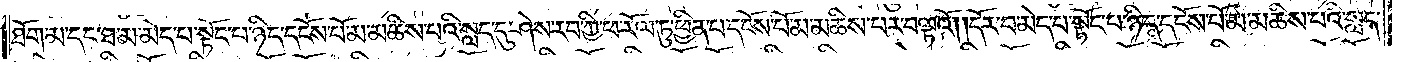ཐོག་མ་དང་ཐ་མ་མེད་པ་སྟོང་པ་ཉིད་དངོས་པོ་མ་མཆིས་པའི་སླད་དུ་ཤེས་རབ་ཀྱི་ཕ་རོལ་ཏུ་ཕྱིན་པ་དངོས་པོ་མ་མཆིས་པར་བལྟའོ། །དོར་བ་མེད་པ་སྟོང་པ་ཉིད་དངོས་པོ་མ་མཆིས་པའི་སླད་
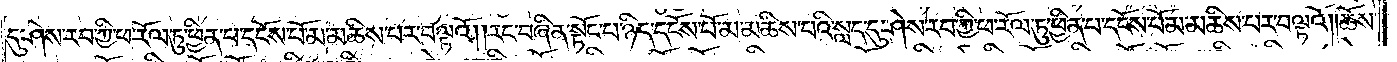དུ་ཤེས་རབ་ཀྱི་ཕ་རོལ་ཏུ་ཕྱིན་པ་དངོས་པོ་མ་མཆིས་པར་བལྟའོ། །རང་བཞིན་སྟོང་པ་ཉིད་དངོས་པོ་མ་མཆིས་པའི་སླད་དུ་ཤེས་རབ་ཀྱི་ཕ་རོལ་ཏུ་ཕྱིན་པ་དངོས་པོ་མ་མཆིས་པར་བལྟའོ། །ཆོས་
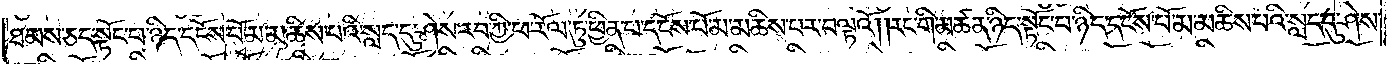ཐམས་ཅད་སྟོང་པ་ཉིད་དངོས་པོ་མ་མཆིས་པའི་སླད་དུ་ཤེས་རབ་ཀྱི་ཕ་རོལ་ཏུ་ཕྱིན་པ་དངོས་པོ་མ་མཆིས་པར་བལྟའོ། །རང་གི་མཚན་ཉིད་སྟོང་པ་ཉིད་དངོས་པོ་མ་མཆིས་པའི་སླད་དུ་ཤེས་
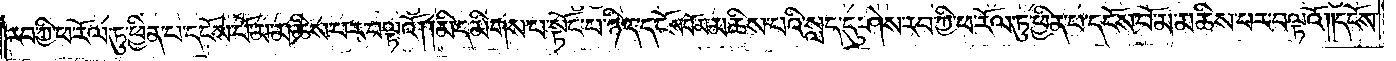རབ་ཀྱི་ཕ་རོལ་ཏུ་ཕྱིན་པ་དངོས་པོ་མ་མཆིས་པར་བལྟའོ། །མི་དམིགས་པ་སྟོང་པ་ཉིད་དངོས་པོ་མ་མཆིས་པའི་སླད་དུ་ཤེས་རབ་ཀྱི་ཕ་རོལ་ཏུ་ཕྱིན་པ་དངོས་པོ་མ་མཆིས་པར་བལྟའོ། །དངོས་
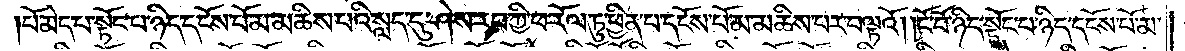པོ་མེད་པ་སྟོང་པ་ཉིད་དངོས་པོ་མ་མཆིས་པའི་སླད་དུ་ཤེས་རབ་ཀྱི་ཕ་རོལ་ཏུ་ཕྱིན་པ་དངོས་པོ་མ་མཆིས་པར་བལྟའོ། །ངོ་བོ་ཉིད་སྟོང་པ་ཉིད་དངོས་པོ་མ་
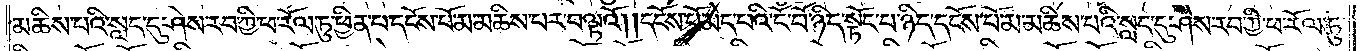མཆིས་པའི་སླད་དུ་ཤེས་རབ་ཀྱི་ཕ་རོལ་ཏུ་ཕྱིན་པ་དངོས་པོ་མ་མཆིས་པར་བལྟའོ། །དངོས་པོ་མེད་པའི་ངོ་བོ་ཉིད་སྟོང་པ་ཉིད་དངོས་པོ་མ་མཆིས་པའི་སླད་དུ་ཤེས་རབ་ཀྱི་ཕ་རོལ་ཏུ་
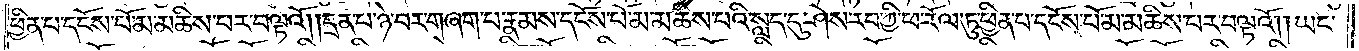ཕྱིན་པ་དངོས་པོ་མ་མཆིས་པར་བལྟའོ། །དྲན་པ་ཉེ་བར་གཞག་པ་རྣམས་དངོས་པོ་མ་མཆིས་པའི་སླད་དུ་ཤེས་རབ་ཀྱི་ཕ་རོལ་ཏུ་ཕྱིན་པ་དངོས་པོ་མ་མཆིས་པར་བལྟའོ། །ཡང་
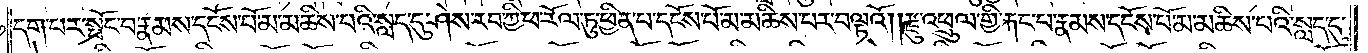དག་པར་སྤོང་བ་རྣམས་དངོས་པོ་མ་མཆིས་པའི་སླད་དུ་ཤེས་རབ་ཀྱི་ཕ་རོལ་ཏུ་ཕྱིན་པ་དངོས་པོ་མ་མཆིས་པར་བལྟའོ། །རྫུ་འཕྲུལ་གྱི་རྐང་པ་རྣམས་དངོས་པོ་མ་མཆིས་པའི་སླད་དུ་
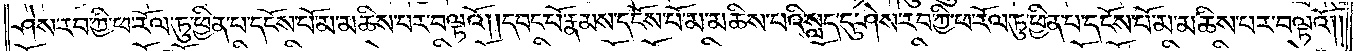ཤེས་རབ་ཀྱི་ཕ་རོལ་ཏུ་ཕྱིན་པ་དངོས་པོ་མ་མཆིས་པར་བལྟའོ། །དབང་པོ་རྣམས་དངོས་པོ་མ་མཆིས་པའི་སླད་དུ་ཤེས་རབ་ཀྱི་ཕ་རོལ་ཏུ་ཕྱིན་པ་དངོས་པོ་མ་མཆིས་པར་བལྟའོ༎
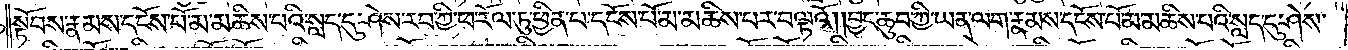སྟོབས་རྣམས་དངོས་པོ་མ་མཆིས་པའི་སླད་དུ་ཤེས་རབ་ཀྱི་ཕ་རོལ་ཏུ་ཕྱིན་པ་དངོས་པོ་མ་མཆིས་པར་བལྟའོ། །བྱང་ཆུབ་ཀྱི་ཡན་ལག་རྣམས་དངོས་པོ་མ་མཆིས་པའི་སླད་དུ་ཤེས་
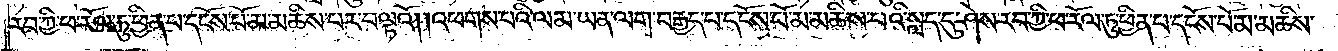རབ་ཀྱི་ཕ་རོལ་ཏུ་ཕྱིན་པ་དངོས་པོ་མ་མཆིས་པར་བལྟའོ། །འཕགས་པའི་ལམ་ཡན་ལག་བརྒྱད་པ་དངོས་པོ་མ་མཆིས་པའི་སླད་དུ་ཤེས་རབ་ཀྱི་ཕ་རོལ་ཏུ་ཕྱིན་པ་དངོས་པོ་མ་མཆིས་
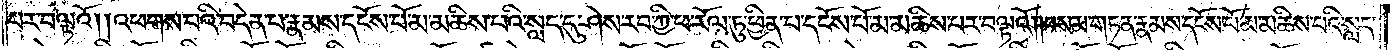པར་བལྟའོ། །འཕགས་པའི་བདེན་པ་རྣམས་དངོས་པོ་མ་མཆིས་པའི་སླད་དུ་ཤེས་རབ་ཀྱི་ཕ་རོལ་ཏུ་ཕྱིན་པ་དངོས་པོ་མ་མཆིས་པར་བལྟའོ། །བསམ་གཏན་རྣམས་དངོས་པོ་མ་མཆིས་པའི་སླད་
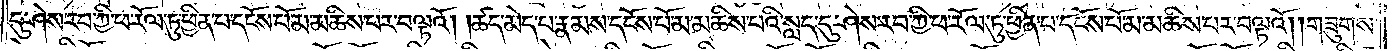དུ་ཤེས་རབ་ཀྱི་ཕ་རོལ་ཏུ་ཕྱིན་པ་དངོས་པོ་མ་མཆིས་པར་བལྟའོ། །ཚད་མེད་པ་རྣམས་དངོས་པོ་མ་མཆིས་པའི་སླད་དུ་ཤེས་རབ་ཀྱི་ཕ་རོལ་ཏུ་ཕྱིན་པ་དངོས་པོ་མ་མཆིས་པར་བལྟའོ། །གཟུགས་
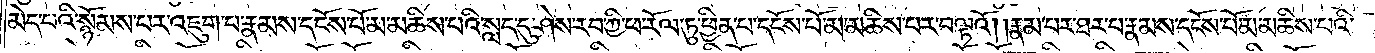མེད་པའི་སྙོམས་པར་འཇུག་པ་རྣམས་དངོས་པོ་མ་མཆིས་པའི་སླད་དུ་ཤེས་རབ་ཀྱི་ཕ་རོལ་ཏུ་ཕྱིན་པ་དངོས་པོ་མ་མཆིས་པར་བལྟའོ། །རྣམ་པར་ཐར་པ་རྣམས་དངོས་པོ་མ་མཆིས་པའི་
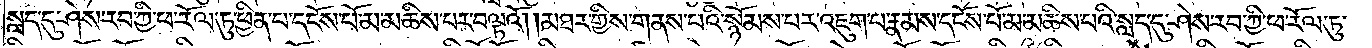སླད་དུ་ཤེས་རབ་ཀྱི་ཕ་རོལ་ཏུ་ཕྱིན་པ་དངོས་པོ་མ་མཆིས་པར་བལྟའོ། །མཐར་གྱིས་གནས་པའི་སྙོམས་པར་འཇུག་པ་རྣམས་དངོས་པོ་མ་མཆིས་པའི་སླད་དུ་ཤེས་རབ་ཀྱི་ཕ་རོལ་ཏུ་
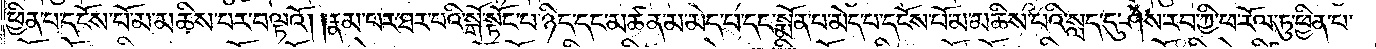ཕྱིན་པ་དངོས་པོ་མ་མཆིས་པར་བལྟའོ། །རྣམ་པར་ཐར་པའི་སྒོ་སྟོང་པ་ཉིད་དང་མཚན་མ་མེད་པ་དང་སྨོན་པ་མེད་པ་དངོས་པོ་མ་མཆིས་པའི་སླད་དུ་ཤེས་རབ་ཀྱི་ཕ་རོལ་ཏུ་ཕྱིན་པ་
